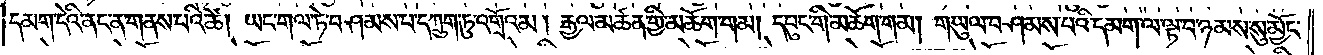དམག་དེའི་ནང་ན་གནས་པའི་ཚེ། ཡང་གལ་ཏེ་བཤམས་པ་དཀྲུག་ཏུ་འགྲོའམ། རྒྱལ་མཚན་གྱི་མཆོག་གམ། དཔུང་གི་མཆོག་གམ། གཡུལ་བཤམས་པའི་དམག་ལ་ལྟ་བ་ཉམས་སུ་མྱོང་
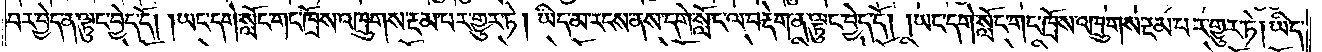བར་བྱེད་ན་ལྟུང་བྱེད་དོ། །ཡང་དགེ་སློང་གང་ཁྲོས་འཁྲུགས་རྔམ་པར་གྱུར་ཏེ། ཡིད་མ་རངས་ནས་དགེ་སློང་ལ་བརྡེག་ན་ལྟུང་བྱེད་དོ། །ཡང་དགེ་སློང་གང་ཁྲོས་འཁྲུགས་རྔམ་པར་གྱུར་ཏེ། ཡིད་
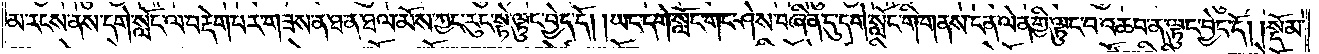མ་རངས་ནས་དགེ་སློང་ལ་བརྡེག་པར་གཟས་ན་ཐ་ན་ཐལ་མོས་ཀྱང་རུང་སྟེ་ལྟུང་བྱེད་དོ། །ཡང་དགེ་སློང་གང་ཤེས་བཞིན་དུ་དགེ་སློང་གི་གནས་ངན་ལེན་གྱི་ལྟུང་བ་འཆབ་ན་ལྟུང་བྱེད་དོ།    །སྡོམ་
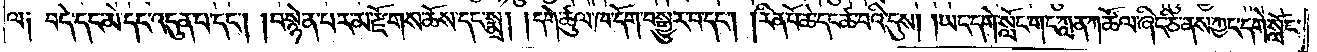ལ༑ བདེ་དང་མེ་དང་འདུན་པ་དང༌། བསྙེན་པར་མ་རྫོགས་ཆོས་དང་སྨྲ། །དགེ་ཚུལ་ཁ་དོག་བསྒྱུར་བ་དང༌། །རིན་པོ་ཆེ་དང་ཚ་བའི་དུས། །ཡང་དགེ་སློང་གང་ཀླན་ཀ་ཚོལ་ཞིང་ཅི་ནས་ཀྱང་དགེ་སློང་
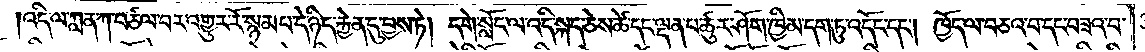།འདི་ལ་ཀླན་ཀ་བཙལ་བར་འགྱུར་རོ་སྙམ་པ་དེ་ཉིད་རྐྱེན་དུ་བྱས་ཏེ། དགེ་སློང་ལ་འདི་སྐད་ཅེས་ཚེ་དང་ལྡན་པ་ཚུར་ཤོག་ཁྱིམ་དག་ཏུ་འདོང་དང༌། ཁྱོད་ལ་བཅའ་བ་དང་བཟའ་བ་
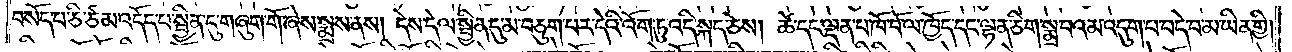བསོད་པ་ཅི་ཙམ་འདོད་པ་སྦྱིན་དུ་གཞུག་གོ་ཞེས་སྨྲས་ནས། དེས་དེ་ལ་སྦྱིན་དུ་མ་བཅུག་པར་དེའི་འོག་ཏུ་འདི་སྐད་ཅེས། ཚེ་དང་ལྡན་པ་ཁོ་བོ་ལ་ཁྱོད་དང་ལྷན་ཅིག་སྨྲ་བའམ་འདུག་པ་བདེ་བ་མ་ཡིན་གྱི་
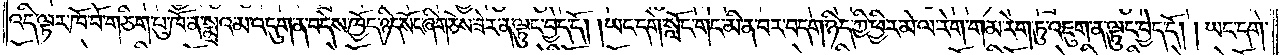འདི་ལྟར་ཁོ་བོ་གཅིག་པུ་ཁོ་ན་སྨྲའམ་འདུག་ན་བདེས་ཁྱོད་ཉིད་སོང་ཞིག་ཅེས་ཟེར་ན་ལྟུང་བྱེད་དོ། །ཡང་དགེ་སློང་གང་མི་ན་བར་བདག་ཉིད་ཀྱི་ཕྱིར་མེ་ལ་རེག་གམ་རེག་ཏུ་འཇུག་ན་ལྟུང་བྱེད་དོ། །ཡང་དགེ་
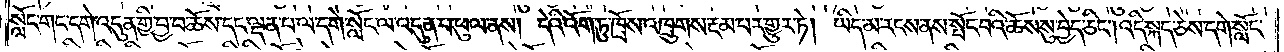སློང་གང་དགེ་འདུན་གྱི་བྱ་བ་ཆོས་དང་ལྡན་པ་ལ་དགེ་སློང་ལ་འདུན་པ་ཕུལ་ནས། དེའི་འོག་ཏུ་ཁྲོས་འཁྲུགས་རྔམ་པར་གྱུར་ཏེ། ཡིད་མ་རངས་ནས་སྤོང་བའི་ཆོས་སུ་བྱེད་ཅིང༌། འདི་སྐད་ཅེས་དགེ་སློང་
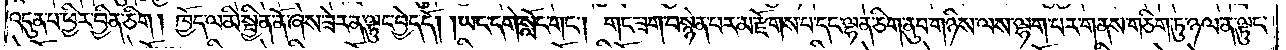འདུན་པ་ཕྱིར་བྱིན་ཅིག །ཁྱོད་ལ་མི་སྦྱིན་ནོ་ཞེས་ཟེར་ན་ལྟུང་བྱེད་དོ། །ཡང་དགེ་སློང་གང༌། གང་ཟག་བསྙེན་པར་མ་རྫོགས་པ་དང་ལྷན་ཅིག་ཏུ་ནུབ་གཉིས་ལས་ལྷག་པར་གནས་གཅིག་ཏུ་ཉལ་ན་ལྟུང་
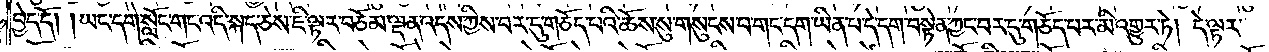བྱེད་དོ། །ཡང་དགེ་སློང་གང་འདི་སྐད་ཅེས་ཇི་ལྟར་བཅོམ་ལྡན་འདས་ཀྱིས་བར་དུ་གཅོད་པའི་ཆོས་སུ་གསུངས་བ་གང་དག་ཡིན་པ་དེ་དག་བསྟེན་ཀྱང་བར་དུ་གཅོད་པར་མི་འགྱུར་ཏེ། དེ་ལྟར་
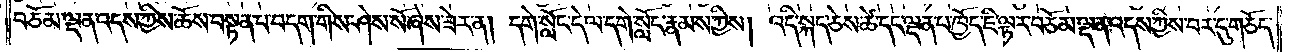བཅོམ་ལྡན་འདས་ཀྱིས་ཆོས་བསྟན་པ་བདག་གིས་ཤེས་སོ་ཞེས་ཟེར་ན། དགེ་སློང་དེ་ལ་དགེ་སློང་རྣམས་ཀྱིས། འདི་སྐད་ཅེས་ཚེ་དང་ལྡན་པ་ཁྱོད་ཇི་ལྟར་བཅོམ་ལྡན་འདས་ཀྱིས་བར་དུ་གཅོད་
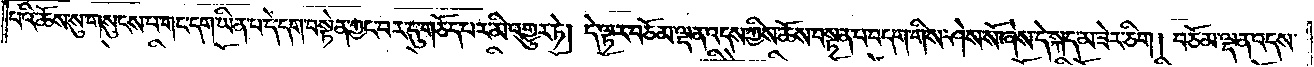པའི་ཆོས་སུ་གསུངས་པ་གང་དག་ཡིན་པ་དེ་དག་བསྟེན་ཀྱང་བར་དུ་གཅོད་པར་མི་འགྱུར་ཏེ། དེ་ལྟར་བཅོམ་ལྡན་འདས་ཀྱིས་ཆོས་བསྟན་པ་བདག་གིས་ཤེས་སོ་ཞེས་དེ་སྐད་མ་ཟེར་ཅིག །བཅོམ་ལྡན་འདས་
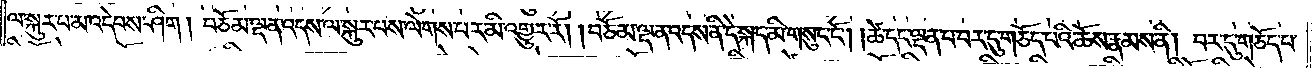ལ་སྐུར་པ་མ་འདེབས་ཤིག །བཅོམ་ལྡན་འདས་ལ་སྐུར་པས་ལེགས་པར་མི་འགྱུར་རོ། །བཅོམ་ལྡན་འདས་ནི་དེ་སྐད་མི་གསུང་ངོ༌། །ཚེ་དང་ལྡན་པ་བར་དུ་གཅོད་པའི་ཆོས་རྣམས་ནི། བར་དུ་གཅོད་པ་
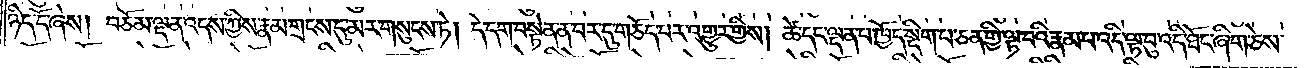ཉིད་དོ་ཞེས། བཅོམ་ལྡན་འདས་ཀྱིས་རྣམ་གྲངས་དུ་མར་གསུངས་ཏེ། དེ་དག་བསྟེན་ན་བར་དུ་གཅོད་པར་འགྱུར་གྱིས། ཚེ་དང་ལྡན་པ་ཁྱོད་སྡིག་པ་ཅན་གྱི་ལྟ་བའི་རྣམ་པ་འདི་ལྟ་བུ་འདི་ཐོང་ཞིག་ཅེས་
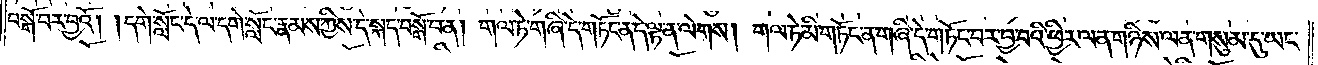བསྒོ་བར་བྱའོ། །དགེ་སློང་དེ་ལ་དགེ་སློང་རྣམས་ཀྱིས་དེ་སྐད་བསྒོ་བ་ན། གལ་ཏེ་གཞི་དེ་གཏོང་ན་དེ་ལྟ་ན་ལེགས། གལ་ཏེ་མི་གཏོང་ན་གཞི་དེ་གཏོང་བར་བྱ་བའི་ཕྱིར་ལན་གཉིས་ལན་གསུམ་དུ་ཡང་
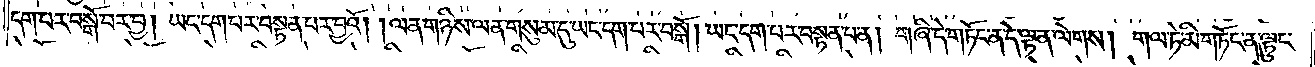དག་པར་བསྒོ་བར་བྱ། ཡང་དག་པར་བསྟན་པར་བྱའོ། །ལན་གཉིས་ལན་གསུམ་དུ་ཡང་དག་པར་བསྒོ། ཡང་དག་པར་བསྟན་པ་ན། གཞི་དེ་གཏོང་ན་དེ་ལྟ་ན་ལེགས། གལ་ཏེ་མི་གཏོང་ན་ལྟུང་
